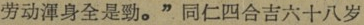劳动渾身是勁。”同仁四合吉六十八岁
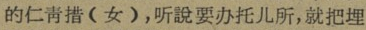的仁靑措（女），听說要办托儿所，就把埋
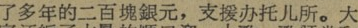了多年的二百塊银元，支援办托儿所。大
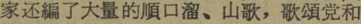家还編了大量的順口溜、山歌，歌頌党和
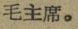毛主席。
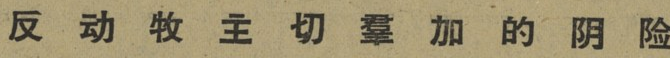反 动 牧 主 切 羣 加 的 阴 险
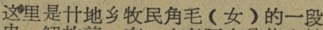这里是廿地乡牧民角毛（女）的一段
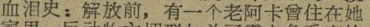血泪史：解放前，有一个老阿卡曾住在她
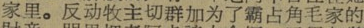家里。反动牧主切群加为了霸占角毛家的
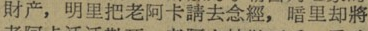財产，明里把老阿卡请去念經，暗里却將
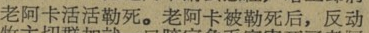老阿卡活活勒死。老阿卡被勒死后，反动
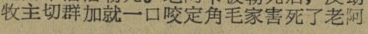牧主切群加就一口咬定角毛家害死了老阿
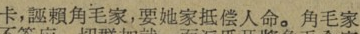卡，誣賴角毛家，讓她家抵偿人命。角毛家
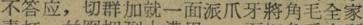不答应，切群加就一面派爪牙將角毛全家
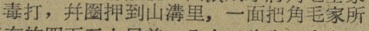毒打，并圈押到山溝里，一面把角毛家所
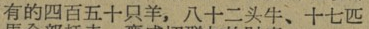有的四百五十只羊，八十二头牛、十七匹
